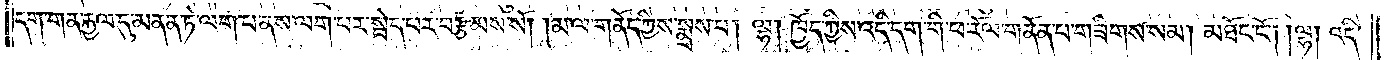དག་གན་རྐྱལ་དུ་མནན་ཏེ་ལག་པ་ནས་ལག་པར་སྦེད་པར་བརྩམས་སོ། །མ་ལ་གནོད་ཀྱིས་སྨྲས་པ། ལྷ། ཁྱོད་ཀྱིས་འདི་དག་གི་ཕ་རོལ་གནོན་པ་གཟིགས་སམ། མཐོང་ངོ༌། །ལྷ། འདི་
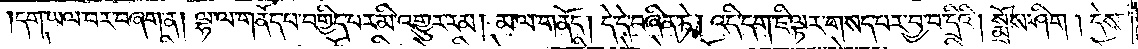དག་ཡལ་བར་བཞག་ན། ལྷ་ལ་གནོད་པ་བགྱིད་པར་མི་འགྱུར་རམ། མ་ལ་གནོད། དེ་དེ་བཞིན་ཏེ། འདི་དག་ཇི་ལྟར་གསད་པར་བྱ་བ་དྲིའི། སྨྲོས་ཤིག །དེས་
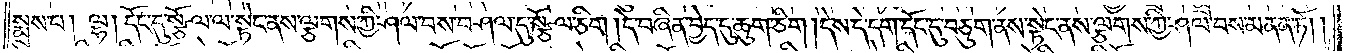སྨྲས་པ། ལྷ། དོང་དུ་སྩོལ་ལ་སྟེང་ནས་ལྕགས་ཀྱི་ཤལ་བས་བཤལ་དུ་སྩོལ་ཅིག །དེ་བཞིན་བྱེད་དུ་ཆུག་ཅིག །དེས་དེ་དག་དོང་དུ་བཅུག་ནས་སྟེང་ནས་ལྕགས་ཀྱི་ཤལ་བས་མནན་ཏོ། །
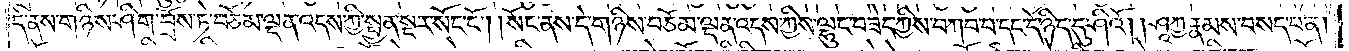དེ་ནས་གཉིས་ཤིག་བྲོས་ཏེ་བཅོམ་ལྡན་འདས་ཀྱི་སྤྱན་སྔར་སོང་ངོ༌། །སོང་ནས་དེ་གཉིས་བཅོམ་ལྡན་འདས་ཀྱིས་ལྷུང་བཟེད་ཀྱིས་བཀབ་པ་དང་དེ་ཉིད་དུ་ཤིའོ། །ཤཱཀྱ་རྣམས་བསད་པ་ན།
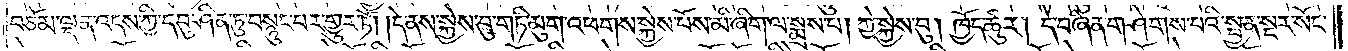བཅོམ་ལྡན་འདས་ཀྱི་དབུ་ཤིན་ཏུ་བསྙུང་པར་གྱུར་ཏོ། །དེ་ནས་སྐྱེས་བུ་གཏི་མུག་འཕགས་སྐྱེས་པོས་མི་ཞིག་ལ་སྨྲས་པ། ཀྱེ་སྐྱེས་བུ། ཁྱོད་ཚུར། དེ་བཞིན་གཤེགས་པའི་སྤྱན་སྔར་སོང་
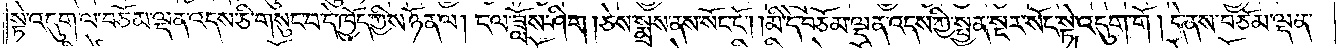སྟེ་འདུག་ལ་བཅོམ་ལྡན་འདས་ཅི་གསུང་བ་དེ་ཁྱོད་ཀྱིས་ཉོན་ལ། ང་ལ་ཟློས་ཤིག །ཅེས་སྨྲས་ནས་སོང་ངོ་།མི་དེ་བཅོམ་ལྡན་འདས་ཀྱི་སྤྱན་སྔར་སོང་སྟེ་འདུག་གོ །དེ་ནས་བཅོམ་ལྡན་
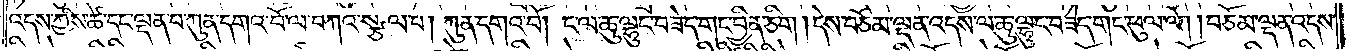འདས་ཀྱིས་ཚེ་དང་ལྡན་པ་ཀུན་དགའ་བོ་ལ་བཀའ་སྩལ་པ། ཀུན་དགའ་བོ། ང་ལ་ཆུ་ལྷུང་བཟེད་གང་བྱིན་ཅིག །དེས་བཅོམ་ལྡན་འདས་ལ་ཆུ་ལྷུང་བཟེད་གང་ཕུལ་ལོ། །བཅོམ་ལྡན་འདས་
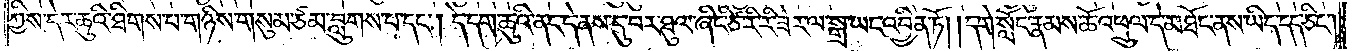ཀྱིས་དེར་ཆུའི་ཐིགས་པ་གཉིས་གསུམ་ཙམ་བླུགས་པ་དང༌། དེ་དག་ཆུའི་ནང་དེ་ནས་དུ་བར་ཐུལ་ཞིང་ཙི་རི་རི་ཟེར་ལ་སྒྲ་ཡང་འབྱིན་ཏོ། །དགེ་སློང་རྣམས་ཆོ་འཕྲུལ་དེ་མཐོང་ནས་ཡིད་དད་ཅིང༌།
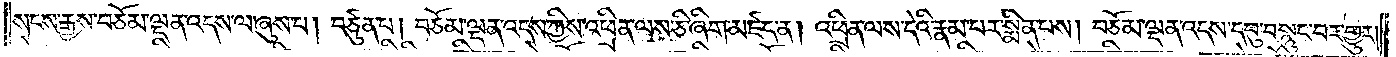སངས་རྒྱས་བཅོམ་ལྡན་འདས་ལ་ཞུས་པ། བཙུན་པ། བཅོམ་ལྡན་འདས་ཀྱིས་འཕྲིན་ལས་ཅི་ཞིག་མཛད་ན། འཕྲིན་ལས་དེའི་རྣམ་པར་སྨིན་པས། བཅོམ་ལྡན་འདས་དབུ་བསྙུང་བར་གྱུར།
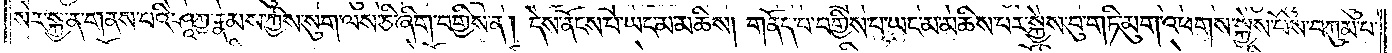སེར་སྐྱ་ན་གནས་པའི་ཤཱཀྱ་རྣམས་ཀྱིས་སུག་ལས་ཅི་ཞིག་བགྱིས་ན། དེས་ནོངས་པ་ཡང་མ་མཆིས། གནོད་པ་བགྱིས་པ་ཡང་མ་མཆིས་པར་སྐྱེས་བུ་གཏི་མུག་འཕགས་སྐྱེས་པོས་བཀུམ་པ་
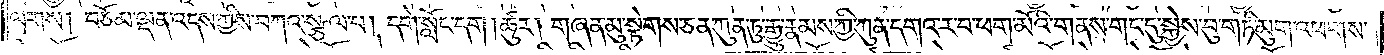ལགས། བཅོམ་ལྡན་འདས་ཀྱིས་བཀའ་སྩལ་པ། དགེ་སློང་དག །ཚུར། གཞན་མུ་སྟེགས་ཅན་ཀུན་ཏུ་རྒྱུ་རྣམས་ཀྱི་ཀུན་དགའ་ར་བ་ཕག་མོའི་གནས་གང་དུ་སྐྱེས་བུ་གཏི་མུག་འཕགས་
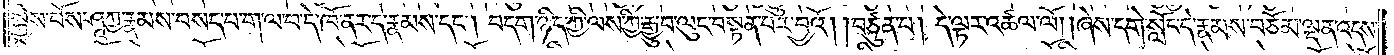སྐྱེས་པོས་ཤཱཀྱ་རྣམས་བསད་པ་ག་ལ་བ་དེ་ཁོ་ནར་དེ་རྣམས་དང༌། བདག་ཉིད་ཀྱི་ལས་ཀྱི་རྒྱུ་བ་ལུང་བསྟན་པར་བྱའོ། །བཙུན་པ། དེ་ལྟར་འཚལ་ལོ། །ཞེས་དགེ་སློང་དེ་རྣམས་བཅོམ་ལྡན་འདས་
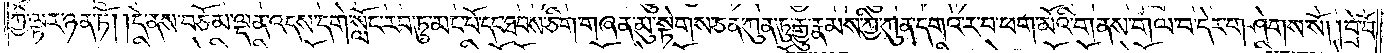ཀྱི་ལྟར་ཉན་ཏོ། །དེ་ནས་བཅོམ་ལྡན་འདས་དགེ་སློང་རབ་ཏུ་མང་པོ་དང་ཐབས་ཅིག་གཞན་མུ་སྟེགས་ཅན་ཀུན་ཏུ་རྒྱུ་རྣམས་ཀྱི་ཀུན་དགའ་ར་བ་ཕག་མོའི་གནས་གལ་བ་དེར་གཤེགས་སོ། །བྲེ་བོ་
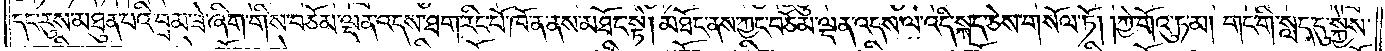དང་རུས་མཐུན་པའི་བྲམ་ཟེ་ཞིག་གིས་བཅོམ་ལྡན་འདས་ཐག་རིང་པོ་ཁོ་ན་ནས་མཐོང་སྟེ། མཐོང་ནས་ཀྱང་བཅོམ་ལྡན་འདས་ལ་འདི་སྐད་ཅེས་གསོལ་ཏོ། །ཀྱེ་གོའུ་ཏ་མ། གང་གི་སླད་དུ་སྐྱེས་
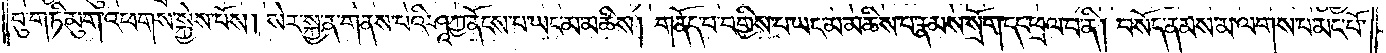བུ་གཏི་མུག་འཕགས་སྐྱེས་པོས། སེར་སྐྱ་ན་གནས་པའི་ཤཱཀྱ་ནོངས་པ་ཡང་མ་མཆིས། གནོད་པ་བགྱིས་པ་ཡང་མ་མཆིས་པ་རྣམས་སྲོག་དང་ཕྲལ་བ་ནི། བསོད་ནམས་མ་ལགས་པ་མང་པོ་
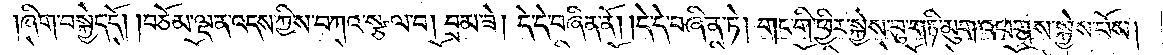ཞིག་བསྐྱེད་དོ། །བཅོམ་ལྡན་འདས་ཀྱིས་བཀའ་སྩལ་པ། བྲམ་ཟེ། དེ་དེ་བཞིན་ནོ། །དེ་དེ་བཞིན་ཏེ། གང་གི་ཕྱིར་སྐྱེས་བུ་གཏི་མུག་འཕགས་སྐྱེས་པོས།
